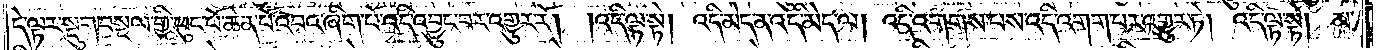དེ་ལྟར་སྡུག་བསྔལ་གྱི་ཕུང་པོ་ཆེན་པོ་འབའ་ཞིག་པོ་འདི་འབྱུང་བར་འགྱུར་རོ། །འདི་ལྟ་སྟེ། འདི་མེད་ན་འདི་མེད་ལ། འདི་འགགས་པས་འདི་འགག་པར་འགྱུར་ཏེ། འདི་ལྟ་སྟེ། མ་
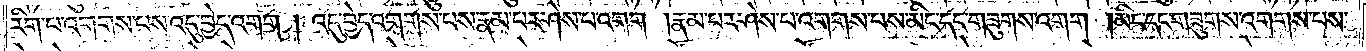རིག་པ་འགགས་པས་འདུ་བྱེད་འགག །འདུ་བྱེད་འགགས་པས་རྣམ་པར་ཤེས་པ་འགག །རྣམ་པར་ཤེས་པ་འགགས་པས་མིང་དང་གཟུགས་འགག །མིང་དང་གཟུགས་འགགས་པས་
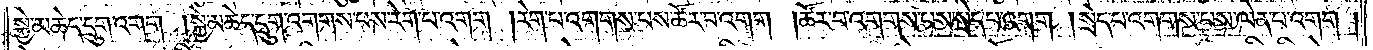སྐྱེ་མཆེད་དྲུག་འགག །སྐྱེ་མཆེད་དྲུག་འགགས་པས་རེག་པ་འགག །རེག་པ་འགགས་པས་ཚོར་བ་འགག །ཚོར་བ་འགགས་པས་སྲེད་པ་འགག །སྲེད་པ་འགགས་པས་ལེན་པ་འགག །
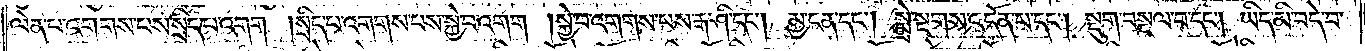ལེན་པ་འགགས་པས་སྲིད་པ་འགག །སྲིད་པ་འགགས་པས་སྐྱེ་བ་འགག །སྐྱེ་བ་འགགས་པས་རྒ་ཤི་དང༌། མྱ་ངན་དང༌། སྨྲེ་སྔགས་འདོན་པ་དང༌། སྡུག་བསྔལ་བ་དང༌། ཡིད་མི་བདེ་བ་
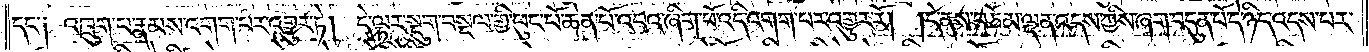དང་༑ འཁྲུག་པ་རྣམས་འགག་པར་འགྱུར་ཏེ། དེ་ལྟར་སྡུག་བསྔལ་གྱི་ཕུང་པོ་ཆེན་པོ་འབའ་ཞིག་པོ་འདི་འགག་པར་འགྱུར་རོ། །དེ་ནས་བཅོམ་ལྡན་འདས་ཀྱིས་ཞག་བདུན་པོ་དེ་ཉིད་འདས་པར་
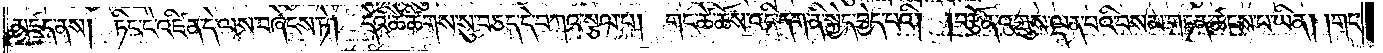མཛད་ནས། ཏིང་ངེ་འཛིན་དེ་ལས་བཞེངས་ཏེ། དེའི་ཚེ་ཚིགས་སུ་བཅད་དེ་བཀའ་སྩལ་པ། གང་ཚེ་ཆོས་འདི་དག་ནི་སྐྱེད་བྱེད་པའི། །བརྩོན་འགྲུས་ལྡན་པའི་བསམ་གཏན་ཚངས་པ་ཡིན། །གང་
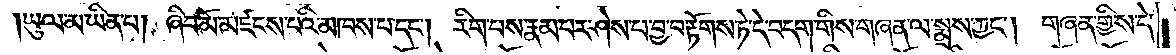ཡུལ་མ་ཡིན་པ། ཞིབ་མོ་མཛངས་པའི་མཁས་པ་དང༌། རིག་པས་རྣམ་པར་ཤེས་པ་བྱ་བ་རྟོགས་ཏེ་དེ་བདག་གིས་གཞན་ལ་སྨྲས་ཀྱང༌། གཞན་གྱིས་དེ་
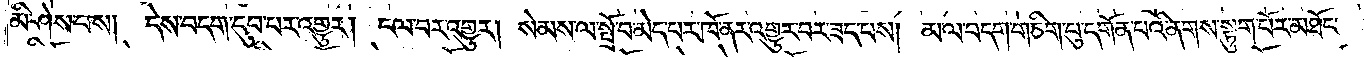མི་ཤེས་པས། དེས་བདག་དུབ་པར་འགྱུར། ངལ་བར་འགྱུར། སེམས་ལ་སྤྲོ་བ་མེད་པར་ཁོ་ནར་འགྱུར་བར་ཟད་པས། མ་ལ་བདག་གཅིག་པུ་དགོན་པའི་ནགས་སྟུག་པོར་མཐོང་
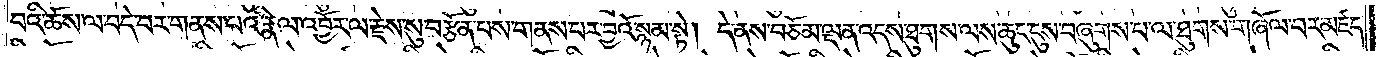བའི་ཆོས་ལ་བདེ་བར་གནས་པའི་རྣལ་འབྱོར་ལ་རྗེས་སུ་བརྩོན་པས་གནས་པར་བྱའོ་སྙམ་སྟེ། དེ་ནས་བཅོམ་ལྡན་འདས་ཐུགས་ལས་ཆུང་དུས་བཞུགས་པ་ལ་ཐུགས་གཞོལ་བར་མཛད་
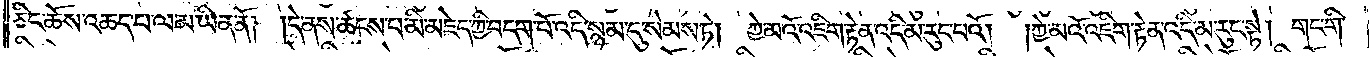ཅིང་ཆོས་འཆད་པ་ལ་མ་ཡིན་ནོ། །དེ་ནས་ཚངས་པ་མི་མཇེད་ཀྱི་བདག་པོ་འདི་སྙམ་དུ་སེམས་ཏེ། ཀྱེ་མའོ་འཇིག་རྟེན་འདི་མ་རུང་བའོ།<gap>།ཀྱེ་མའོ་འཇིག་རྟེན་འདི་མ་རུང་སྟེ། གང་གི་
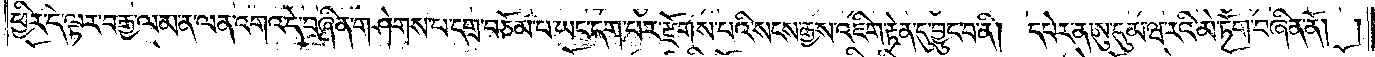ཕྱིར་དེ་ལྟར་བརྒྱ་ལམ་ན་ལན་འགའ་དེ་བཞིན་གཤེགས་པ་དགྲ་བཅོམ་པ་ཡང་དག་པར་རྫོགས་པའི་སངས་རྒྱས་འཇིག་རྟེན་དུ་བྱུང་བ་ནི། དཔེར་ན་ཨུ་དུམ་ཝ་རའི་མེ་ཏོག་བཞིན་ནོ། །
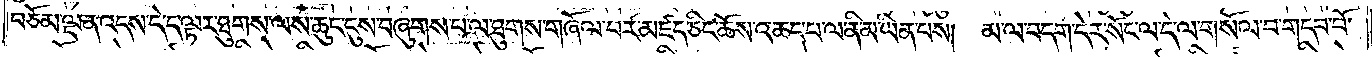བཅོམ་ལྡན་འདས་དེ་ད་ལྟར་ཐུགས་ལས་ཆུང་ངུས་བཞུགས་པ་ལ་ཐུགས་གཞོལ་བར་མཛད་ཅིང་ཆོས་འཆད་པ་ལ་ནི་མ་ཡིན་པས། མ་ལ་བདག་དེར་སོང་ལ་དེ་ལ་གསོལ་བ་གདབ་བོ་
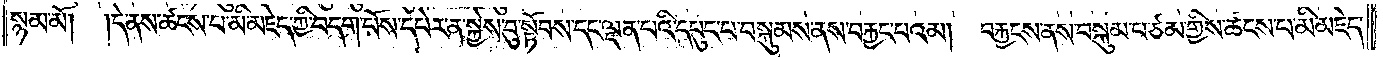སྙམ་མོ། །དེ་ནས་ཚངས་པ་མི་མཇེད་ཀྱི་བདག་པོས་དཔེར་ན་སྐྱེས་བུ་སྟོབས་དང་ལྡན་པའི་དཔུང་པ་བསྐུམས་ནས་བརྐྱང་པའམ།<gap>བརྐྱངས་ནས་བསྐུམ་པ་ཙམ་གྱིས་ཚངས་པ་མི་མཇེད་
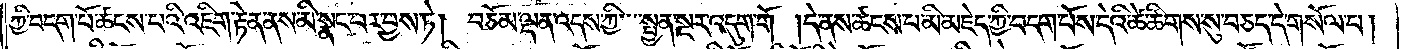ཀྱི་བདག་པོ་ཚངས་པའི་འཇིག་རྟེན་ནས་མི་སྣང་བར་བྱས་ཏེ། བཅོམ་ལྡན་འདས་ཀྱི་སྤྱན་སྔར་འདུག་གོ །དེ་ནས་ཚངས་པ་མི་མཇེད་ཀྱི་བདག་པོས་དེའི་ཚེ་ཚིགས་སུ་བཅད་དེ་གསོལ་པ།
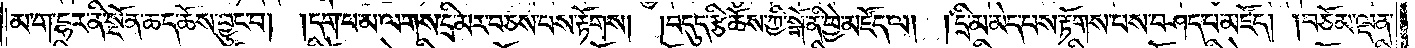མ་ག་དྷར་ནི་སྔོན་ཆད་ཆོས་བྱུང་བ། །དག་པ་མ་ལགས་དྲི་མར་བཅས་པས་རྟོགས། །བདུད་རྩི་ཆོས་ཀྱི་སྒོ་ནི་ཕྱེ་མཛོད་ལ། །དྲི་མ་མེད་པས་རྟོགས་པས་བཤད་པ་མཛོད། །བཅོམ་ལྡན་
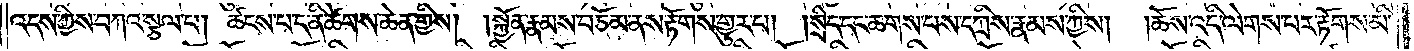འདས་ཀྱིས་བཀའ་སྩལ་པ། ཚངས་པ་ད་ནི་ཚེགས་ཆེན་གྱིས། །སྐྱོན་རྣམས་བཅོམ་ནས་རྟོགས་གྱུར་པ། །སྲིད་དང་ཆགས་པས་དཀྲིས་རྣམས་ཀྱིས། །ཆོས་འདི་ལེགས་པར་རྟོགས་མི་
